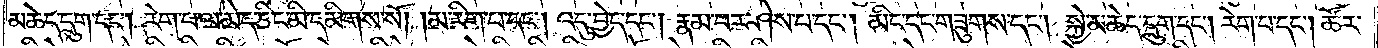མཆེད་དྲུག་དང༌། རེག་པ་ལ་མེད་ཅིང་མི་དམིགས་སོ། །མ་རིག་པ་དང༌། འདུ་བྱེད་དང༌། རྣམ་པར་ཤེས་པ་དང༌། མིང་དང་གཟུགས་དང༌། སྐྱེ་མཆེད་དྲུག་དང༌། རེག་པ་དང༌། ཚོར་
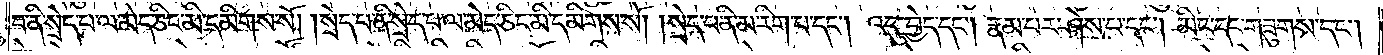བ་ནི་སྲེད་པ་ལ་མེད་ཅིང་མི་དམིགས་སོ། །སྲེད་པ་ནི་སྲེད་པ་ལ་མེད་ཅིང་མི་དམིགས་སོ། །སྲེད་པ་ནི་མ་རིག་པ་དང༌། འདུ་བྱེད་དང༌། རྣམ་པར་ཤེས་པ་དང༌། མིང་དང་གཟུགས་དང༌།
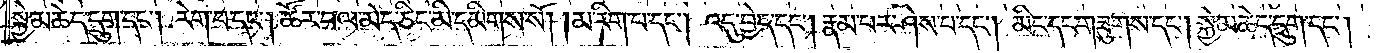སྐྱེ་མཆེད་དྲུག་དང༌། རེག་པ་དང༌། ཚོར་བ་ལ་མེད་ཅིང་མི་དམིགས་སོ། །མ་རིག་པ་དང༌། འདུ་བྱེད་དང༌། རྣམ་པར་ཤེས་པ་དང༌། མིང་དང་གཟུགས་དང༌། སྐྱེ་མཆེད་དྲུག་དང༌།
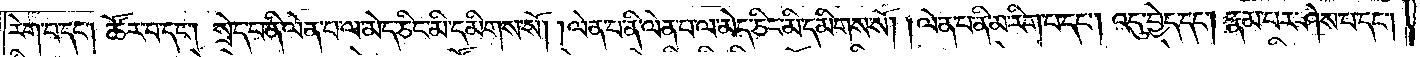རེག་པ་དང༌། ཚོར་བ་དང༌། སྲེད་པ་ནི་ལེན་པ་ལ་མེད་ཅིང་མི་དམིགས་སོ། །ལེན་པ་ནི་ལེན་པ་ལ་མེད་ཅིང་མི་དམིགས་སོ། །ལེན་པ་ནི་མ་རིག་པ་དང༌། འདུ་བྱེད་དང༌། རྣམ་པར་ཤེས་པ་དང༌།
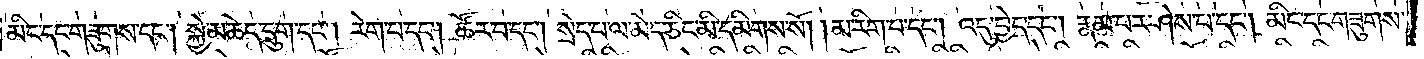མིང་དང་གཟུགས་དང༌། སྐྱེ་མཆེད་དྲུག་དང༌། རེག་པ་དང༌། ཚོར་བ་དང་སྲེད་པ་ལ་མེད་ཅིང་མི་དམིགས་སོ། །མ་རིག་པ་དང༌། འདུ་བྱེད་དང༌། རྣམ་པར་ཤེས་པ་དང༌། མིང་དང་གཟུགས་
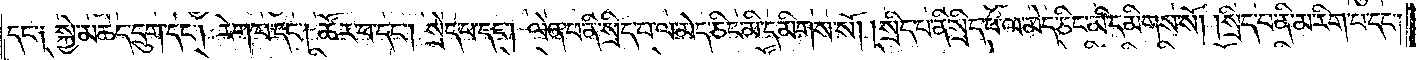དང༌། སྐྱེ་མཆེད་དྲུག་དང༌། རེག་པ་དང༌། ཚོར་བ་དང༌། སྲེད་པ་དང༌། ལེན་པ་ནི་སྲིད་པ་ལ་མེད་ཅིང་མི་དམིགས་སོ། །སྲིད་པ་ནི་སྲིད་པ་ལ་མེད་ཅིང་མི་དམིགས་སོ། །སྲིད་པ་ནི་མ་རིག་པ་དང༌།
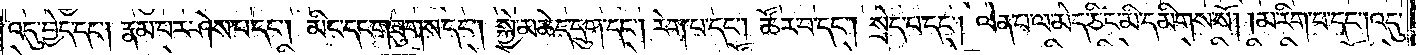འདུ་བྱེད་དང༌། རྣམ་པར་ཤེས་པ་དང༌། མིང་དང་གཟུགས་དང༌། སྐྱེ་མཆེད་དྲུག་དང༌། རེག་པ་དང༌། ཚོར་བ་དང༌། སྲེད་པ་དང༌། ལེན་པ་ལ་མེད་ཅིང་མི་དམིགས་སོ། །མ་རིག་པ་དང༌། འདུ་
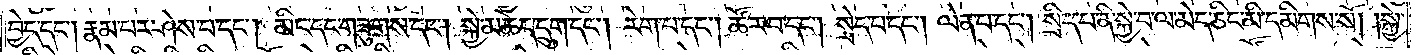བྱེད་དང༌། རྣམ་པར་ཤེས་པ་དང༌། མིང་དང་གཟུགས་དང༌། སྐྱེ་མཆེད་དྲུག་དང༌། རེག་པ་དང༌། ཚོར་བ་དང༌། སྲེད་པ་དང༌། ལེན་པ་དང༌། སྲིད་པ་ནི་སྐྱེ་བ་ལ་མེད་ཅིང་མི་དམིགས་སོ། །སྐྱེ་
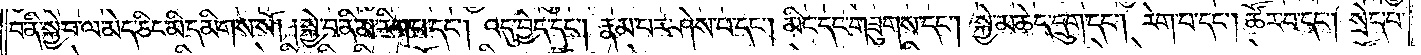བ་ནི་སྐྱེ་བ་ལ་མེད་ཅིང་མི་དམིགས་སོ། །སྐྱེ་བ་ནི་མ་རིག་པ་དང༌། འདུ་བྱེད་དང༌། རྣམ་པར་ཤེས་པ་དང༌། མིང་དང་གཟུགས་དང༌། སྐྱེ་མཆེད་དྲུག་དང༌། རེག་པ་དང༌། ཚོར་བ་དང༌། སྲེད་པ་
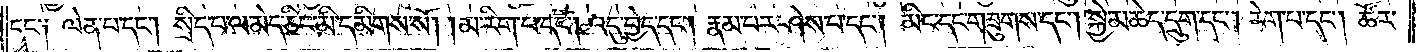དང༌། ལེན་པ་དང༌། སྲིད་པ་ལ་མེད་ཅིང་མི་དམིགས་སོ། །མ་རིག་པ་དང༌། འདུ་བྱེད་དང༌། རྣམ་པར་ཤེས་པ་དང༌། མིང་དང་གཟུགས་དང༌། སྐྱེ་མཆེད་དྲུག་དང༌། རེག་པ་དང༌། ཚོར་
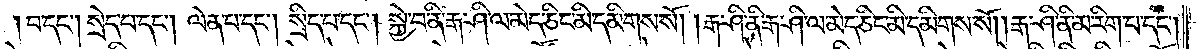བ་དང༌། སྲེད་པ་དང༌། ལེན་པ་དང༌། སྲིད་པ་དང་སྐྱེ་བ་ནི་རྒ་ཤི་ལ་མེད་ཅིང་མི་དམིགས་སོ། །རྒ་ཤི་ནི་རྒ་ཤི་ལ་མེད་ཅིང་མི་དམིགས་སོ། །རྒ་ཤི་ནི་མ་རིག་པ་དང༌།
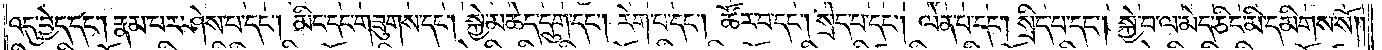འདུ་བྱེད་དང༌། རྣམ་པར་ཤེས་པ་དང༌། མིང་དང་གཟུགས་དང༌། སྐྱེ་མཆེད་དྲུག་དང༌། རེག་པ་དང༌། ཚོར་བ་དང༌། སྲེད་པ་དང༌། ལེན་པ་དང༌། སྲིད་པ་དང༌། སྐྱེ་བ་ལ་མེད་ཅིང་མི་དམིགས་སོ།
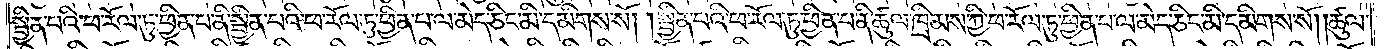སྦྱིན་པའི་ཕ་རོལ་ཏུ་ཕྱིན་པ་ནི་སྦྱིན་པའི་ཕ་རོལ་ཏུ་ཕྱིན་པ་ལ་མེད་ཅིང་མི་དམིགས་སོ། །སྦྱིན་པའི་ཕ་རོལ་ཏུ་ཕྱིན་པ་ནི་ཚུལ་ཁྲིམས་ཀྱི་ཕ་རོལ་ཏུ་ཕྱིན་པ་ལ་མེད་ཅིང་མི་དམིགས་སོ། །ཚུལ་
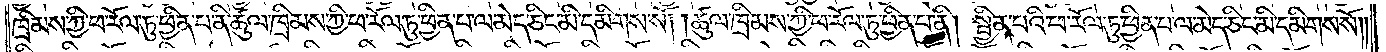ཁྲིམས་ཀྱི་ཕ་རོལ་ཏུ་ཕྱིན་པ་ནི་ཚུལ་ཁྲིམས་ཀྱི་ཕ་རོལ་ཏུ་ཕྱིན་པ་ལ་མེད་ཅིང་མི་དམིགས་སོ། །ཚུལ་ཁྲིམས་ཀྱི་ཕ་རོལ་ཏུ་ཕྱིན་པ་ནི། སྦྱིན་པའི་ཕ་རོལ་ཏུ་ཕྱིན་པ་ལ་མེད་ཅིང་མི་དམིགས་སོ། །
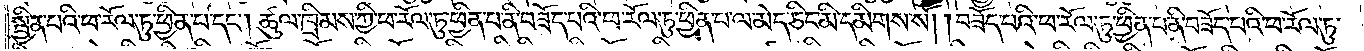སྦྱིན་པའི་ཕ་རོལ་ཏུ་ཕྱིན་པ་དང༌། ཚུལ་ཁྲིམས་ཀྱི་ཕ་རོལ་ཏུ་ཕྱིན་པ་ནི་བཟོད་པའི་ཕ་རོལ་ཏུ་ཕྱིན་པ་ལ་མེད་ཅིང་མི་དམིགས་སོ། །བཟོད་པའི་ཕ་རོལ་ཏུ་ཕྱིན་པ་ནི་བཟོད་པའི་ཕ་རོལ་ཏུ་
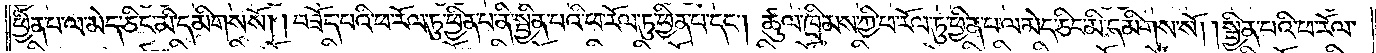ཕྱིན་པ་ལ་མེད་ཅིང་མི་དམིགས་སོ། །བཟོད་པའི་ཕ་རོལ་ཏུ་ཕྱིན་པ་ནི་སྦྱིན་པའི་ཕ་རོལ་ཏུ་ཕྱིན་པ་དང༌། ཚུལ་ཁྲིམས་ཀྱི་ཕ་རོལ་ཏུ་ཕྱིན་པ་ལ་མེད་ཅིང་མི་དམིགས་སོ། །སྦྱིན་པའི་ཕ་རོལ་
